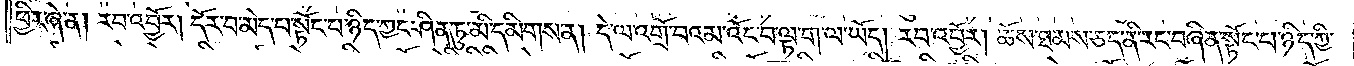ཕྱིར་ཞེ་ན། རབ་འབྱོར། དོར་བ་མེད་པ་སྟོང་པ་ཉིད་ཀྱང་ཤིན་ཏུ་མི་དམིགས་ན། དེ་ལ་འགྲོ་བའམ་འོང་བ་ལྟ་ག་ལ་ཡོད། རབ་འབྱོར། ཆོས་ཐམས་ཅད་ནི་རང་བཞིན་སྟོང་པ་ཉིད་ཀྱི་
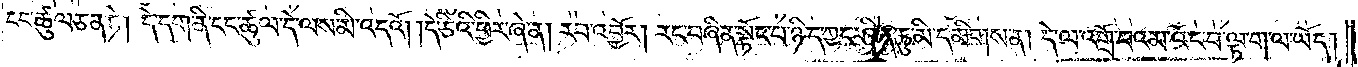ངང་ཚུལ་ཅན་ཏེ། དེ་དག་ནི་ངང་ཚུལ་དེ་ལས་མི་འདའོ། །དེ་ཅིའི་ཕྱིར་ཞེ་ན། རབ་འབྱོར། རང་བཞིན་སྟོང་པ་ཉིད་ཀྱང་ཤིན་ཏུ་མི་དམིགས་ན། དེ་ལ་འགྲོ་བའམ་འོང་བ་ལྟ་ག་ལ་ཡོད།
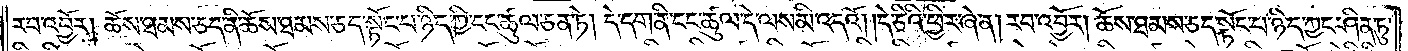རབ་འབྱོར། ཆོས་ཐམས་ཅད་ནི་ཆོས་ཐམས་ཅད་སྟོང་པ་ཉིད་ཀྱི་ངང་ཚུལ་ཅན་ཏེ། དེ་དག་ནི་ངང་ཚུལ་དེ་ལས་མི་འདའོ། །དེ་ཅིའི་ཕྱིར་ཞེ་ན། རབ་འབྱོར། ཆོས་ཐམས་ཅད་སྟོང་པ་ཉིད་ཀྱང་ཤིན་ཏུ་
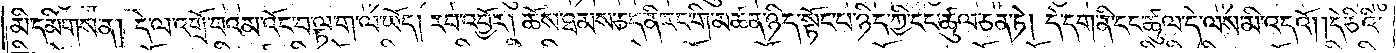མི་དམིགས་ན། དེ་ལ་འགྲོ་བའམ་འོང་བ་ལྟ་ག་ལ་ཡོད། རབ་འབྱོར། ཆོས་ཐམས་ཅད་ནི་རང་གི་མཚན་ཉིད་སྟོང་པ་ཉིད་ཀྱི་ངང་ཚུལ་ཅན་ཏེ། དེ་དག་ནི་ངང་ཚུལ་དེ་ལས་མི་འདའོ། །དེ་ཅིའི་
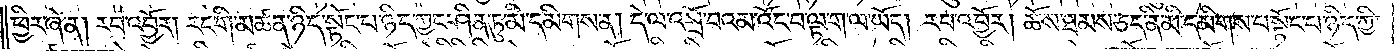ཕྱིར་ཞེ་ན། རབ་འབྱོར། རང་གི་མཚན་ཉིད་སྟོང་པ་ཉིད་ཀྱང་ཤིན་ཏུ་མི་དམིགས་ན། དེ་ལ་འགྲོ་བའམ་འོང་བ་ལྟ་ག་ལ་ཡོད། རབ་འབྱོར། ཆོས་ཐམས་ཅད་ནི་མི་དམིགས་པ་སྟོང་པ་ཉིད་ཀྱི་
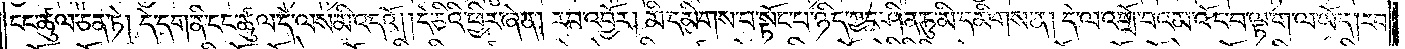ངང་ཚུལ་ཅན་ཏེ། དེ་དག་ནི་ངང་ཚུལ་དེ་ལས་མི་འདའོ། །དེ་ཅིའི་ཕྱིར་ཞེ་ན། རབ་འབྱོར། མི་དམིགས་པ་སྟོང་པ་ཉིད་ཀྱང་ཤིན་ཏུ་མི་དམིགས་ན། དེ་ལ་འགྲོ་བའམ་འོང་བ་ལྟ་ག་ལ་ཡོད། རབ་
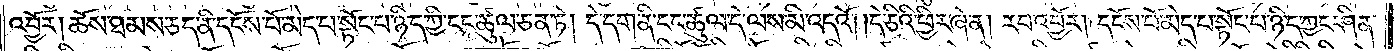འབྱོར། ཆོས་ཐམས་ཅད་ནི་དངོས་པོ་མེད་པ་སྟོང་པ་ཉིད་ཀྱི་ངང་ཚུལ་ཅན་ཏེ། དེ་དག་ནི་ངང་ཚུལ་དེ་ལས་མི་འདའོ། །དེ་ཅིའི་ཕྱིར་ཞེ་ན། རབ་འབྱོར། དངོས་པོ་མེད་པ་སྟོང་པ་ཉིད་ཀྱང་ཤིན་
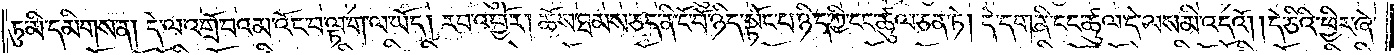ཏུ་མི་དམིགས་ན། དེ་ལ་འགྲོ་བའམ་འོང་བ་ལྟ་ག་ལ་ཡོད། རབ་འབྱོར། ཆོས་ཐམས་ཅད་ནི་ངོ་བོ་ཉིད་སྟོང་པ་ཉིད་ཀྱི་ངང་ཚུལ་ཅན་ཏེ། དེ་དག་ནི་ངང་ཚུལ་དེ་ལས་མི་འདའོ། །དེ་ཅིའི་ཕྱིར་ཞེ་
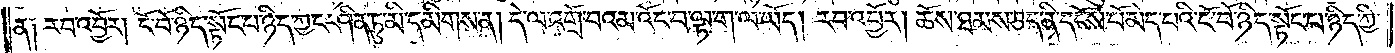ན༑ རབ་འབྱོར། ངོ་བོ་ཉིད་སྟོང་པ་ཉིད་ཀྱང་ཤིན་ཏུ་མི་དམིགས་ན། དེ་ལ་འགྲོ་བའམ་འོང་བ་ལྟ་ག་ལ་ཡོད། རབ་འབྱོར། ཆོས་ཐམས་ཅད་ནི་དངོས་པོ་མེད་པའི་ངོ་བོ་ཉིད་སྟོང་པ་ཉིད་ཀྱི་
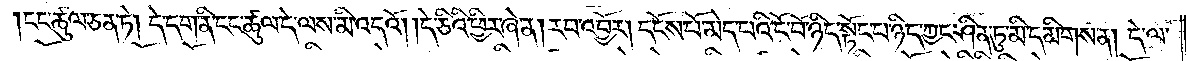ངང་ཚུལ་ཅན་ཏེ། དེ་དག་ནི་ངང་ཚུལ་དེ་ལས་མི་འདའོ། །དེ་ཅིའི་ཕྱིར་ཞེ་ན། རབ་འབྱོར། དངོས་པོ་མེད་པའི་ངོ་བོ་ཉིད་སྟོང་པ་ཉིད་ཀྱང་ཤིན་ཏུ་མི་དམིགས་ན། དེ་ལ་
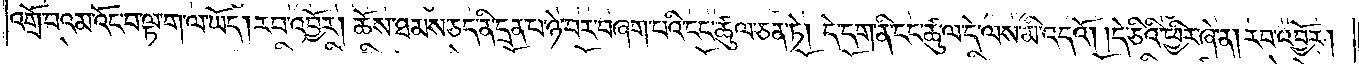འགྲོ་བའམ་འོང་བ་ལྟ་ག་ལ་ཡོད། རབ་འབྱོར། ཆོས་ཐམས་ཅད་ནི་དྲན་པ་ཉེ་བར་བཞག་པའི་ངང་ཚུལ་ཅན་ཏེ། དེ་དག་ནི་ངང་ཚུལ་དེ་ལས་མི་འདའོ། །དེ་ཅིའི་ཕྱིར་ཞེ་ན། རབ་འབྱོར།
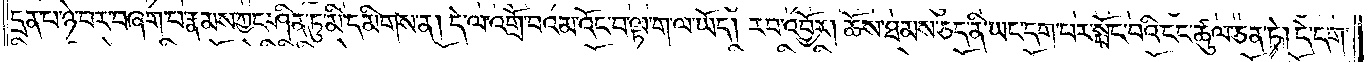དྲན་པ་ཉེ་བར་བཞག་པ་རྣམས་ཀྱང་ཤིན་ཏུ་མི་དམིགས་ན། དེ་ལ་འགྲོ་བའམ་འོང་བ་ལྟ་ག་ལ་ཡོད། རབ་འབྱོར། ཆོས་ཐམས་ཅད་ནི་ཡང་དག་པར་སྤོང་བའི་ངང་ཚུལ་ཅན་ཏེ། དེ་དག་
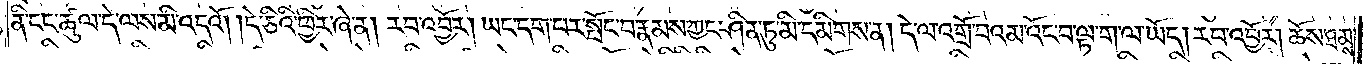ནི་ངང་ཚུལ་དེ་ལས་མི་འདའོ། །དེ་ཅིའི་ཕྱིར་ཞེ་ན། རབ་འབྱོར། ཡང་དག་པར་སྤོང་བ་རྣམས་ཀྱང་ཤིན་ཏུ་མི་དམིགས་ན། དེ་ལ་འགྲོ་བའམ་འོང་བ་ལྟ་ག་ལ་ཡོད། རབ་འབྱོར། ཆོས་ཐམས་
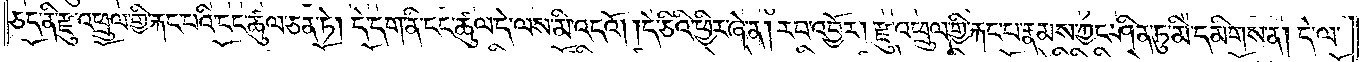ཅད་ནི་རྫུ་འཕྲུལ་གྱི་རྐང་པའི་ངང་ཚུལ་ཅན་ཏེ། དེ་དག་ནི་ངང་ཚུལ་དེ་ལས་མི་འདའོ། །དེ་ཅིའི་ཕྱིར་ཞེ་ན། རབ་འབྱོར། རྫུ་འཕྲུལ་གྱི་རྐང་པ་རྣམས་ཀྱང་ཤིན་ཏུ་མི་དམིགས་ན། དེ་ལ་
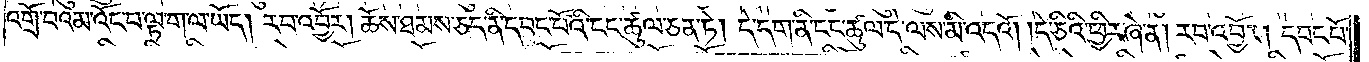འགྲོ་བའམ་འོང་བ་ལྟ་ག་ལ་ཡོད། རབ་འབྱོར། ཆོས་ཐམས་ཅད་ནི་དབང་པོའི་ངང་ཚུལ་ཅན་ཏེ། དེ་དག་ནི་ངང་ཚུལ་དེ་ལས་མི་འདའོ། །དེ་ཅིའི་ཕྱིར་ཞེ་ན། རབ་འབྱོར། དབང་པོ་
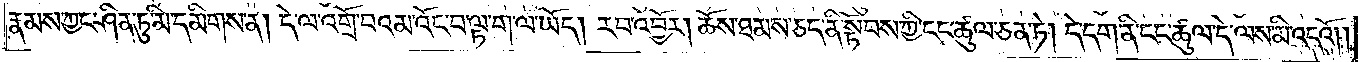རྣམས་ཀྱང་ཤིན་ཏུ་མི་དམིགས་ན། དེ་ལ་འགྲོ་བའམ་འོང་བ་ལྟ་ག་ལ་ཡོད། རབ་འབྱོར། ཆོས་ཐམས་ཅད་ནི་སྟོབས་ཀྱི་ངང་ཚུལ་ཅན་ཏེ། དེ་དག་ནི་ངང་ཚུལ་དེ་ལས་མི་འདའོ། །
